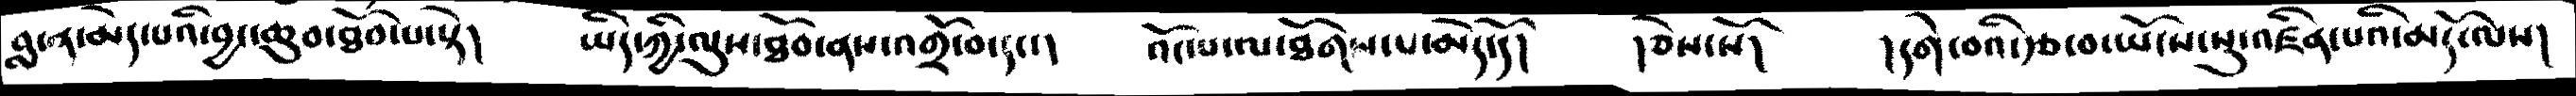བླ་ན་མེད་པའི་བྱང་ཆུབ་ཐོབ་པ་སྟེ།   ཡིད་ཀྱི་ལུས་ཐོབ་ནས་འགྲོ་བ་དང་།    འོང་པ་ལ་ཐོགས་པ་མེད་དོ།    །ཅེས་སོ།    །དགེ་བའི་རྩ་བ་ཡོངས་སུ་འཛིན་པའི་མདོ་ལས་
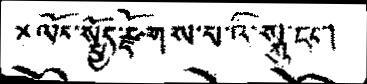+ལོང་སྤྱོད་རྫོགས་པའི་སྐུ་དང་།
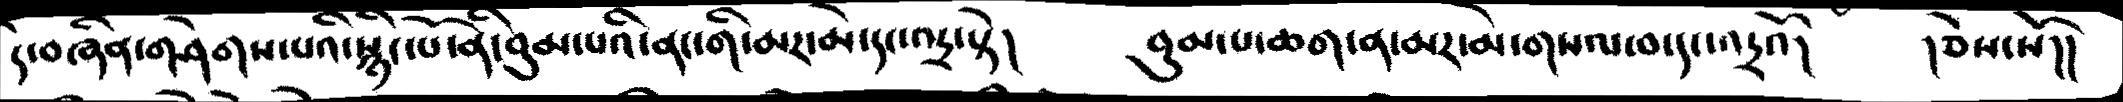དེ་བཞིན་གཤེགས་པའི་སྙིང་པོ་ནི་བུམ་པའི་ནང་གི་མར་མེ་དང་འདྲ་སྟེ།     བུམ་པ་ཆག་ན་མར་མེ་གསལ་བ་དང་འདྲའོ།    །ཅེས་སོ།།
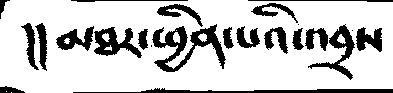།།མཐར་ཕྱིན་པའི་འབྲས
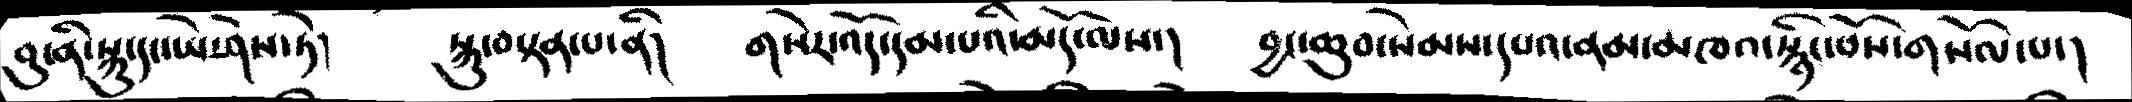བུ་ནི་སྐུ་དང་ཡེ་ཤེས་ཏེ།   སྐུ་བསྟན་པ་ནི།    གསེར་འོད་དམ་པའི་མདོ་ལས་།   བྱང་ཆུབ་སེམས་དཔའ་ནམ་མཁའ་སྙིང་པོས་གསོལ་པ་།
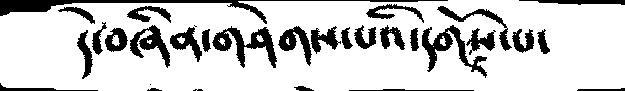དེ་བཞིན་གཤེགས་པའི་དགོངས་པ་
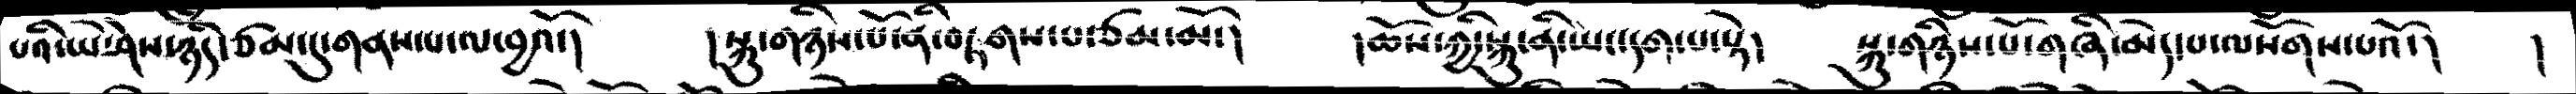པའི་ཡེ་ཤེས་ཉིད་རྩམ་དུ་གནས་པ་ལ་བྱའོ་།  །སྐུ་གཉིས་པོ་ནི་བཏགས་རྩམ་མོ་།  །ཆོས་ཀྱི་སྐུ་ནི་ཡང་དག་པ་སྟེ།  སྐུ་གཉིས་པོ་གཞི་མེད་པ་ལསོགས་པའོ་།  །
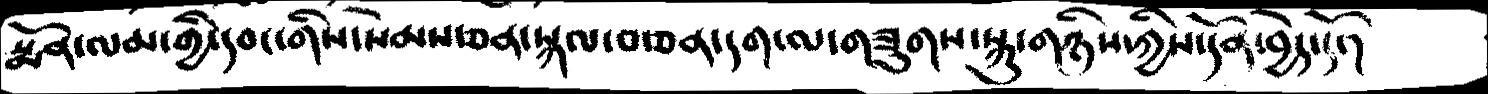སྨོན་ལམ་གྱི་དབང་གིས་སེམས་ཅན་སྐལ་བ་ཅན་དག་ལ་གཟུགས་སྐུ་གཉིས་ཀྱིས་དོན་བྱེད་དོ་།
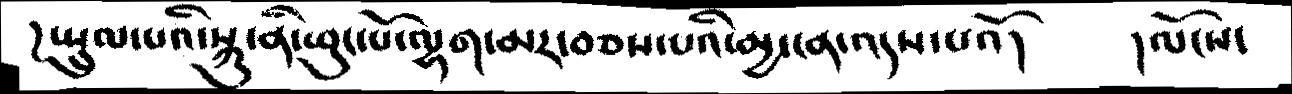།སྤྲུལ་པའི་སྐུ་ནི་ཕུང་པོ་ལྷག་མར་བཅས་པའི་མྱ་ངན་འདས་པའོ།      །ལོངས་
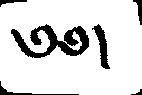༄༅།
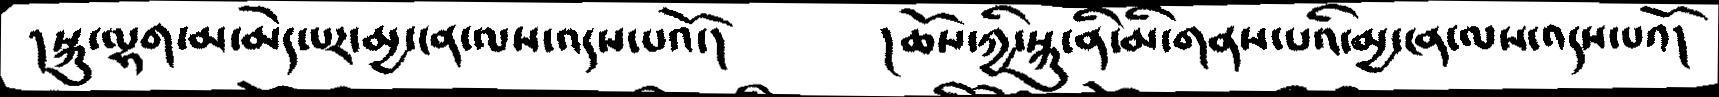།སྐུ་ལྟག་མ་མེད་པར་མྱ་ངན་ལས་འདས་པའོ་།   །ཆོས་ཀྱི་སྐུ་ནི་མི་གནས་པའི་མྱ་ངན་ལས་འས་པའོ།
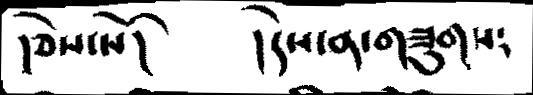།ཅེས་སོ།   །དེས་ན་གཟུགས༴
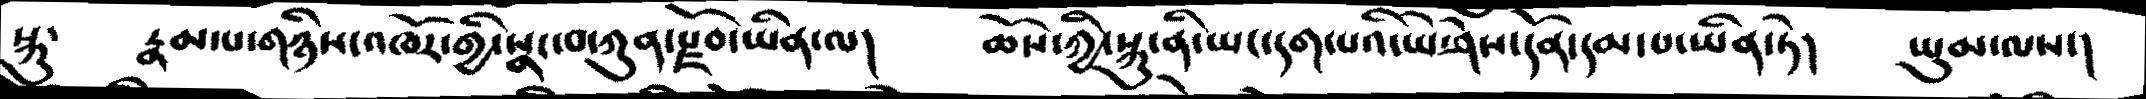སྐུ་    རྣམ་པ་གཉིས་འཁོར་གྱི་སྣང་བ་ཀུན་རྫོབ་ཡིན་ལ།   ཆོས་ཀྱི་སྐུ་ནི་ཡང་དག་པའི་ཡེ་ཤེས་དོན་དམ་པ་ཡིན་ཏེ།   ཡུམ་ལས་།
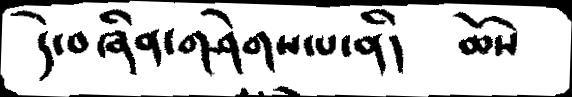དདེ་བཞིན་གཤེགས་པ་ནི།   ཆོས
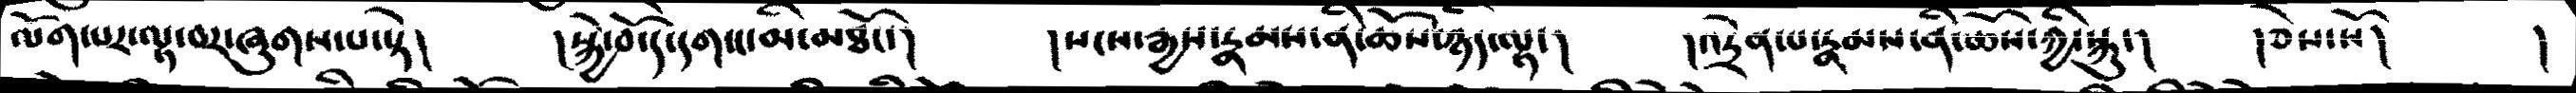ལོག་པར་ལྟ་བར་ཞུགས་པ་སྟེ།   །སྐེུ་བོ་དེ་དགས་མི་མཐོང་།  །སངས་རྒྱས་རྣམས་ནི་ཆོས་ཉིད་ལྟ་།  །འདྲེན་པ་རྣམས་ནི་ཆོས་ཀྱི་སྐུ་།  །ཅེས་སོ།   །
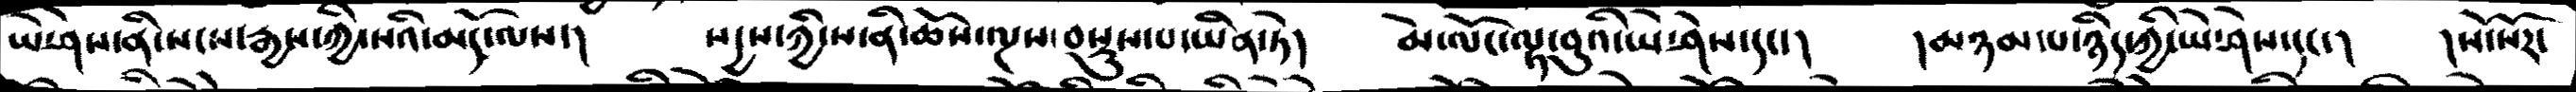ཡེ་ཤེས་ནི་སངས་རྒྱས་ཀྱི་སའི་མདོ་ལས་།  སདྱས་ཀྱི་ས་ནི་ཆོས་ལྔས་བསྡུས་པ་ཡིན་ཏེ།   མེ་ལོང་ལྟ་བུའི་ཡེ་ཤེས་དང་།  །མཉམ་པ་ཉིད་ཀྱི་ཡེ་ཤེས་དང་།   །སོ་སོར་
